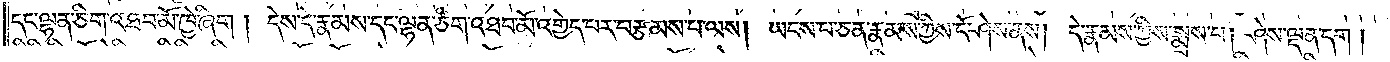དང་ལྷན་ཅིག་འཐབ་མོ་ཁྱེ་ཞིག། དེས་དེ་རྣམས་དང་ལྷན་ཅིག་འཐབ་མོ་འགྱེད་པར་བརྩམས་པ་ལས། ཡངས་པ་ཅན་རྣམས་ཀྱིས་ངོ་ཤེས་ནས། དེ་རྣམས་ཀྱིས་སྨྲས་པ། ཤེས་ལྡན་དག།
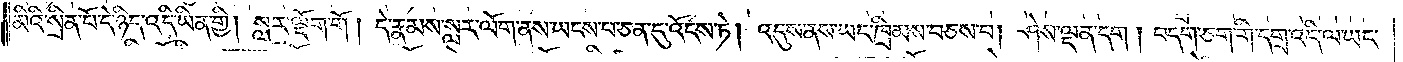མིའི་སྲིན་པོ་དེ་ཉིད་འདི་ཡིན་གྱི། སླར་ལྡོག་གོ། དེ་རྣམས་སླར་ལོག་ནས་ཡངས་པ་ཅན་དུ་འོངས་ཏེ། འདུས་ནས་ཡང་ཁྲིམས་བཅས་པ། ཤེས་ལྡན་དག། བདག་ཅག་གི་དགྲ་འདི་ལ་ཡང་
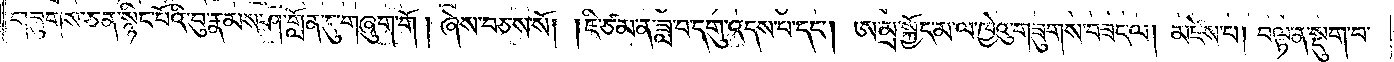གཟུགས་ཅན་སྙིང་པོའི་བུ་རྣམས་ཤ་གློན་དུ་གཞུག་གོ། ཞེས་བཅས་སོ། །ཇི་ཙམ་ན་ཟླ་བ་དགུ་འདས་པ་དང༌། ཨ་མྲ་སྐྱོང་མ་ལ་ཁྱེའུ་གཟུགས་བཟང་ལ། མཛེས་པ། བལྟ་ན་སྡུག་པ་
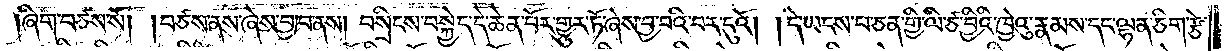།ཞིག་བཙས་སོ། །བཙས་ནས་ཞེས་བྱ་བ་ནས། བསྲིངས་བསྐྱེད་དེ་ཆེན་པོར་གྱུར་ཏོ་ཞེས་བྱ་བའི་བར་དུའོ། །དེ་ཡངས་པ་ཅན་གྱི་ལི་ཙ་བྱིའི་ཁྱེའུ་རྣམས་དང་ལྷན་ཅིག་རྩེ་
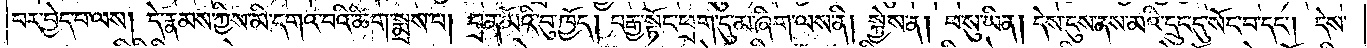པར་བྱེད་པ་ལས། དེ་རྣམས་ཀྱིས་མི་དགའ་བའི་ཚིག་སྨྲས་པ། བྲན་མོའི་བུ་ཁྱོད། བརྒྱ་སྟོང་ཕྲག་དུ་མ་ཞིག་ལས་ནི། སྐྱེས་ན། ཕ་སུ་ཡིན། དེས་ངུས་ནས་མའི་དྲུང་དུ་སོང་བ་དང༌། དེས་
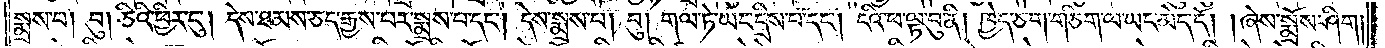སྨྲས་པ། བུ། ཅིའི་ཕྱིར་དུ། དེས་ཐམས་ཅད་རྒྱས་པར་སྨྲས་པ་དང༌། དེས་སྨྲས་པ། བུ། གལ་ཏེ་ཡང་དྲིས་པ་དང༌། ངའི་ཕ་ལྟ་བུ་ནི། ཁྱེད་ཅག་གཅིག་ལ་ཡང་མེད་དོ། །ཞེས་སྨྲོས་ཤིག།
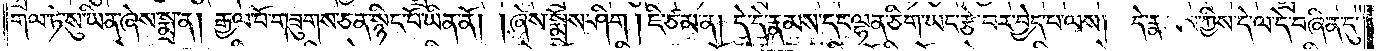གལ་ཏེ་སུ་ཡིན་ཞེས་སྨྲ་ན། རྒྱལ་པོ་གཟུགས་ཅན་སྙིང་པོ་ཡིན་ནོ། །ཞེས་སྨྲོས་ཤིག །ཇི་ཙམ་ན། དེ་དེ་རྣམས་དང་ལྷན་ཅིག་ཡང་རྩེ་བར་བྱེད་པ་ལས། དེ་རྣམས་ཀྱིས་དེ་ལ་དེ་བཞིན་དུ་
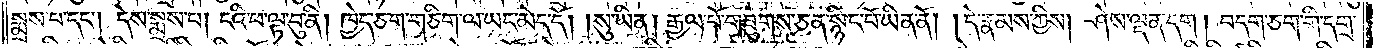སྨྲས་པ་དང༌། དེས་སྨྲས་པ། ངའི་ཕ་ལྟ་བུ་ནི། ཁྱེད་ཅག་གཅིག་ལ་ཡང་མེད་དོ། །སུ་ཡིན། རྒྱལ་པོ་གཟུགས་ཅན་སྙིང་པོ་ཡིན་ནོ། །དེ་རྣམས་ཀྱིས། ཤེས་ལྡན་དག། བདག་ཅག་གི་དགྲ་
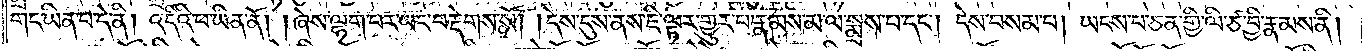གང་ཡིན་པ་དེ་ནི། འདིའི་ཕ་ཡིན་ནོ། །ཞེས་ལྷག་པར་ཡང་བརྡེགས་སོ། །དེས་དུས་ནས་ཇི་ལྟར་གྱུར་པ་རྣམས་མ་ལ་སྨྲས་པ་དང༌། དེས་བསམ་པ། ཡངས་པ་ཅན་གྱི་ལི་ཙ་བྱི་རྣམས་ནི།
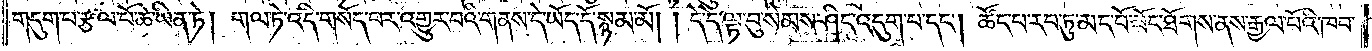གདུག་པ་རྩལ་པོ་ཆེ་ཡིན་ཏེ། གལ་ཏེ་འདི་གསོད་པར་འགྱུར་བའི་གནས་དེ་ཡོད་དོ་སྙམ་མོ། །དེ་དེ་ལྟ་བུ་སེམས་ཤིང་འདུག་པ་དང༌། ཚོང་པ་རབ་ཏུ་མང་པོ་ཟོང་ཐོགས་ནས་རྒྱལ་པོའི་ཁབ་
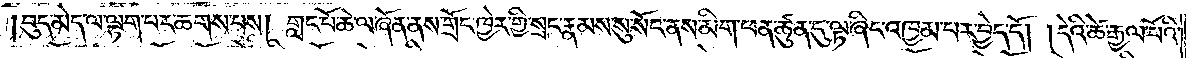བུད་མེད་ལ་ལྷག་པར་ཆགས་པས། གླང་པོ་ཆེ་ལ་ཞོན་ནས་གྲོང་ཁྱེར་གྱི་སྲང་རྣམས་སུ་སོང་ནས་མིག་ཕན་ཚུན་དུ་ལྟ་ཞིང་འཁྱམ་པར་བྱེད་དོ། །དེའི་ཚེ་རྒྱལ་པོའི་
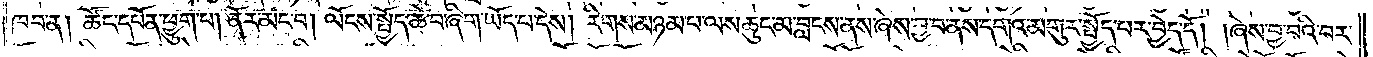ཁབ་ན། ཚོང་དཔོན་ཕྱུག་པ། ནོར་མང་བ། ལོངས་སྤྱོད་ཆེ་བ་ཞིག་ཡོད་པ་དེས། རིགས་མཉམ་པ་ལས་ཆུང་མ་བླངས་ནས་ཞེས་བྱ་བ་ནས་དགའ་མགུར་སྤྱོད་པར་བྱེད་དོ། །ཞེས་བྱ་བའི་བར་
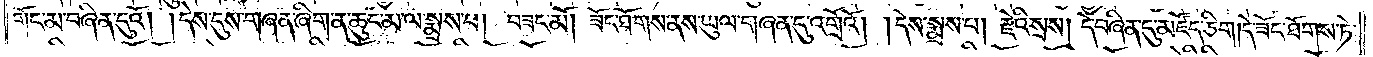གོང་མ་བཞིན་དུའོ། །དེས་དུས་གཞན་ཞིག་ན་ཆུང་མ་ལ་སྨྲས་པ། བཟང་མོ། ཟོང་ཐོགས་ནས་ཡུལ་གཞན་དུ་འགྲོའོ། །དེས་སྨྲས་པ། རྗེའི་སྲས། དེ་བཞིན་དུ་མཛོད་ཅིག །དེ་ཟོང་ཐོགས་ཏེ་
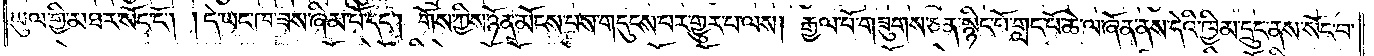ཡུལ་གྱི་མཐར་སོང་ངོ༌། །དེ་ཡང་ཁ་ཟས་ཞིམ་པོ་དང༌། གོས་ཀྱིས་ཉོན་མོངས་པས་གདུངས་པར་གྱུར་པ་ལས། རྒྱལ་པོ་གཟུགས་ཅན་སྙིང་པོ་གླང་པོ་ཆེ་ལ་ཞོན་ནས་དེའི་ཁྱིམ་དྲུང་ནས་སོང་བ་
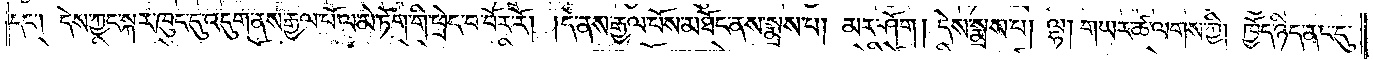དང༌། དེས་ཀྱང་སྐར་ཁུང་དུ་འདུག་ནས་རྒྱལ་པོ་ལ་མེ་ཏོག་གི་ཕྲེང་བ་བོར་རོ། །དེ་ནས་རྒྱལ་པོས་མཐོང་ནས་སྨྲས་པ། མར་ཤོག །དེས་སྨྲས་པ། ལྷ། གཡར་ཚ་ལགས་ཀྱི། ཁྱོད་ཉིད་ནང་དུ་
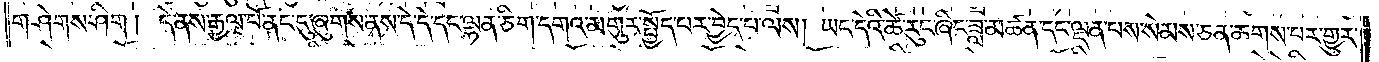གཤེགས་ཤིག །དེ་ནས་རྒྱལ་པོ་ནང་དུ་ཞུགས་ནས་དེ་དེ་དང་ལྷན་ཅིག་དགའ་མགུར་སྤྱོད་པར་བྱེད་པ་ལས། ཡང་དེའི་ཚེ་རུང་ཞིང་ཟླ་མཚན་དང་ལྡན་པས་སེམས་ཅན་ཆགས་པར་གྱུར་
